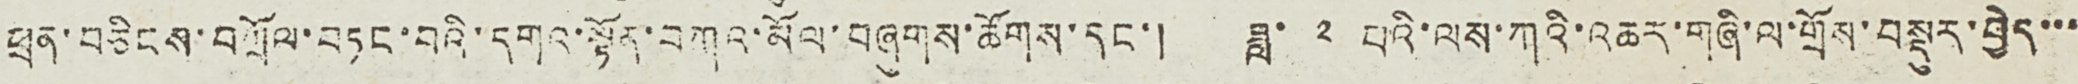ཕྲན་བཅིངས་བཀྲོལ་བཏང་བའི་དགའ་སྟོན་བཀའ་མོལ་བཞུགས་ཚོགས་དང་། ཟླ་ ༢ པའི་ལས་ཀའི་འཆར་གཞི་ལ་གྲོས་བསྡུར་བྱེད་་་
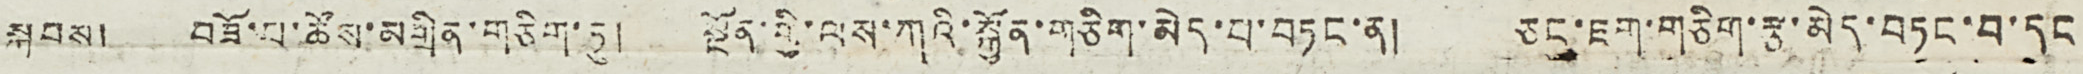སྐབས། བཟོ་པ་ཚོས་མགྲིན་གཅིག་ཏུ། སྔོན་གྱི་ལས་ཀའི་སྐྱོན་གཅིག་མེད་པ་བཏང་ན། ཅང་ཇག་གཅིག་རྩ་མེད་བཏང་བ་དང
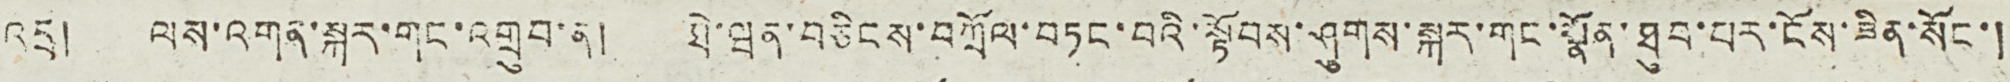འདྲ། ལས་འགན་སྐར་གང་འགྲུབ་ན། ཐེ་ཝན་བཅིངས་བཀྲོལ་བཏང་བའི་སྟོབས་ཤུགས་སྐར་གང་སྣོན་ཐུབ་པར་ངོས་ཟིན་སོང་།
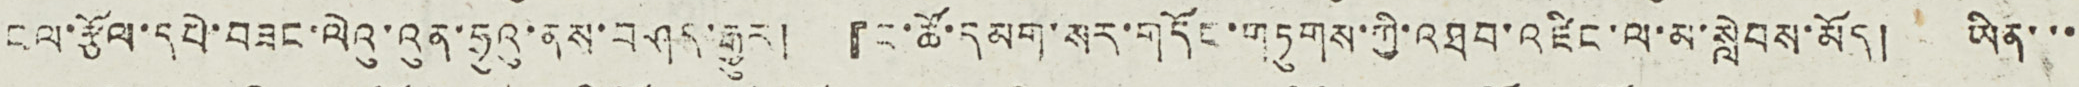ངལ་རྩོལ་དཔེ་བཟང་ལེའུ་འུན་ཧྲུའུ་ནས་བཤད་རྒྱུར། 『ང་ཚོ་དམག་སར་གདོང་གཏུགས་ཀྱི་འཐབ་འཛིང་ལ་མ་སླེབས་མོད། ཡིན་་་
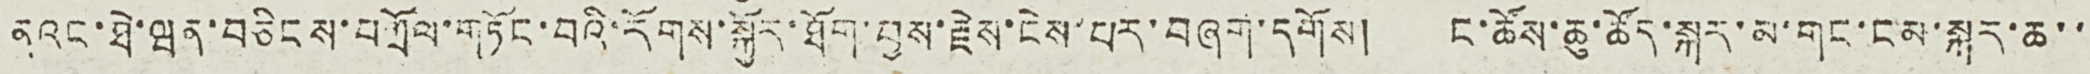ནའང་ཐེ་ཝན་བཅིངས་བཀྲོལ་གཏོང་བའི་རོགས་སྐྱོར་ཐོག་བྱས་རྗེས་ངེས་པར་བཞག་དགོས། ང་ཚོས་ཆུ་ཚོད་སྐར་མ་གང་ངམ་སྐར་ཆ་་
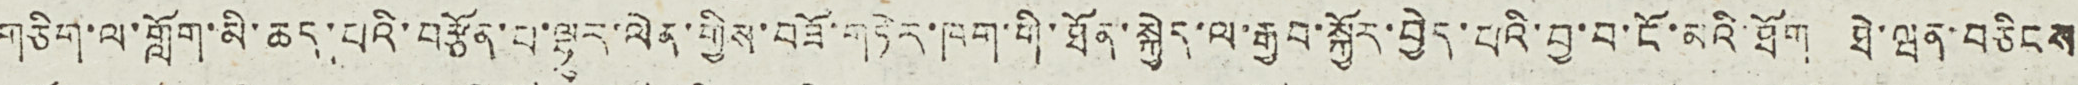གཅིག་ལ་གློག་མི་ཆད་པའི་བརྩོན་པ་ལྷུར་ལེན་གྱིས་བཟོ་གཏེར་ཁག་གི་ཐོན་སྐྱེད་ལ་རྒྱབ་སྐྱོར་བྱེད་པའི་བྱ་བ་ངོ་མའི་ཐོག ཐེ་ཝན་བཅིངས
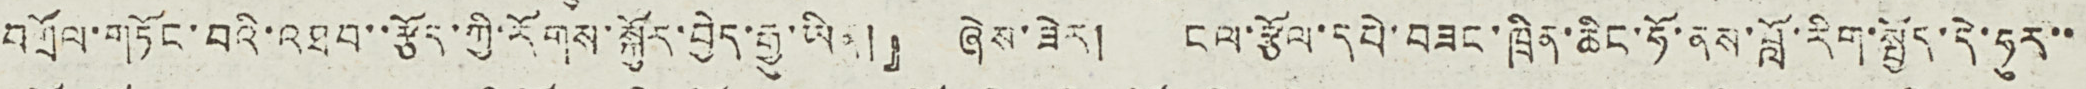བཀྲོལ་གཏོང་བའི་འཐབ་་རྩོད་ཀྱི་རོགས་སྐྱོར་བྱེད་རྒྱུ་ཡིན།』ཞེས་ཟེར། ངལ་རྩོལ་དཔེ་བཟང་ཁྲིན་ཆིང་ཧོ་ནས་བློ་རིག་སྤྱོད་དེ་ཧུར་་
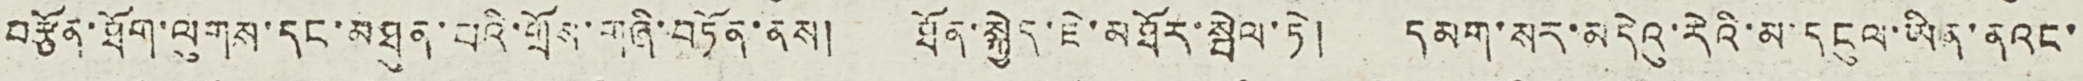བརྩོན་ཐོག་ལུགས་དང་མཐུན་པའི་གྲོས་གཞི་བཏོན་ནས། ཐོན་སྐྱེད་ཇེ་མཐོར་སྤེལ་ཏེ། དམག་སར་མདེའུ་རེའི་མ་དངུལ་ཡིན་ནའང་
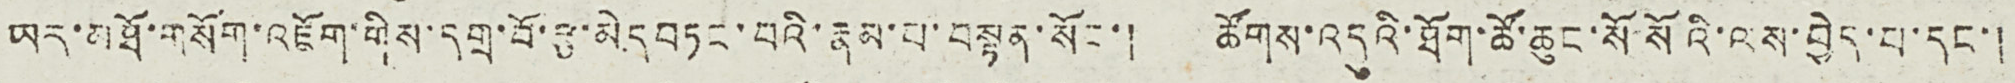ཡར་མཐོ་གསོག་འཇོག་གིས་དགྲ་པོ་རྩ་མེད བཏང་བའི་རྣམ་པ་བསྟན་སོང་། ཚོགས་འདུའི་ཐོག་ཚོ་ཆུང་སོ་སོའི་ལས་བྱེད་པ་དང་།
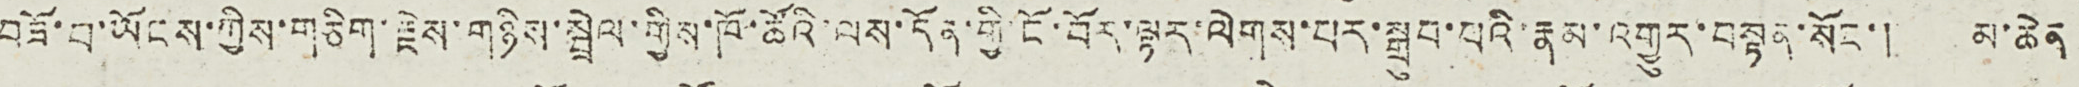བཟོ་བ་ཡོངས་ཀྱིས་གཅིག་རྗེས་གཉིས་སྦྲེལ་གྱིས་ཁོ་ཚོའི་ལས་དོན་གྱི་ངོ་བོར་ལྟར་ལེགས་པར་སྒྲུབ་པའི་རྣམ་འགྱུར་བསྟན་སོང་། མ་ཆེན
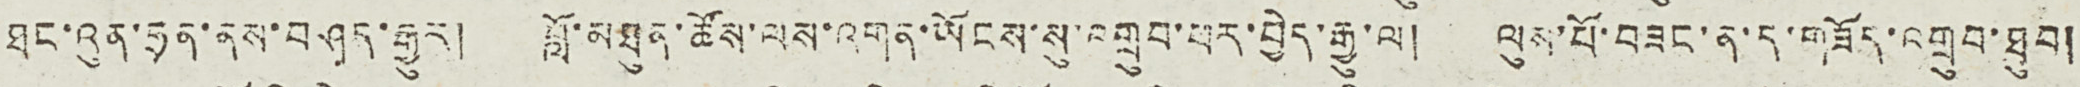ཐང་འུན་ཧྲན་ནས་བཤད་རྒྱུར། བློ་མཐུན་ཚོས་ལས་འགན་ཡོངས་སུ་འགྲུབ་པར་བྱེད་རྒྱུ་ལ། ལུས་པོ་བཟང་ན་ད་གཟོད་འགྲུབ་ཐུབ།
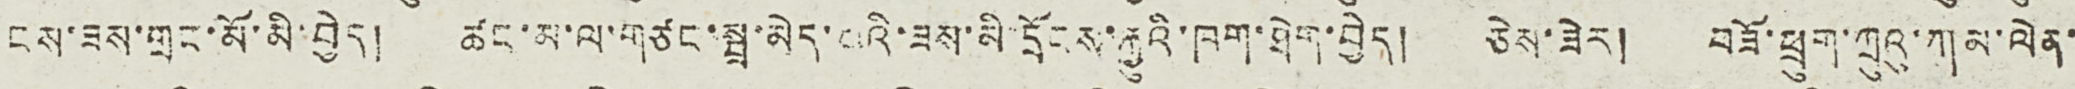ངས་ཟས་གྲང་མོ་མི་བྱེད། ཚང་མ་ལ་གཙང་སྦྲ་མེད་པའི་ཟས་མི་དྲོངས་རྒྱུའི་ཁག་ཐེག་བྱེད། ཅེས་ཟེར། བཟོ་ཕྲུག་ཀྲུའུ་ཀམ་ལེན་
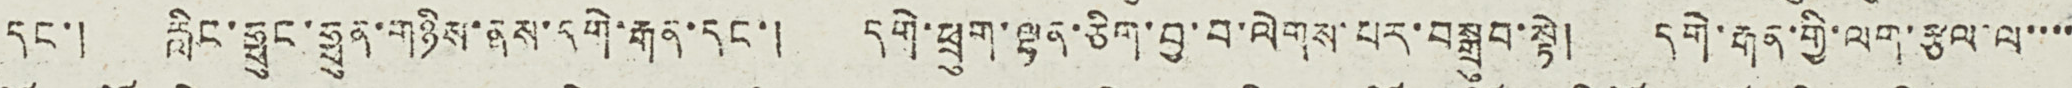དང་། རླིང་ཧྥུང་ཧྥུན་གཉིས་ནས་དགེ་རྒན་དང་། དགེ་ཕྲུག་ལྷན་ཅིག་བྱ་བ་ལེགས་པར་བསྒྲུབ་སྟེ། དགེ་རྒན་གྱི་ལག་རྩལ་ལ་་་་
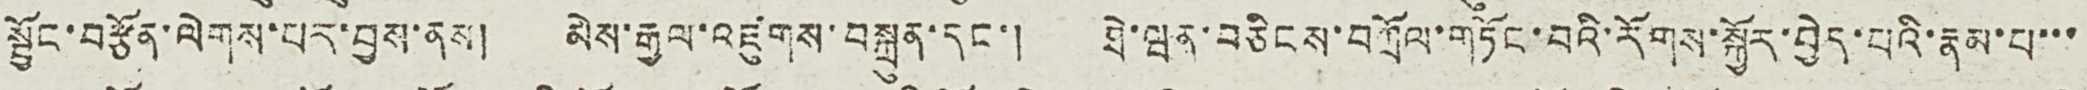སྦྱོང་བརྩོན་ལེགས་པར་བྱས་ནས། མེས་རྒྱལ་འཛུགས་བསྐྲུན་དང་། ཐེ་ཝན་བཅིངས་བཀྲོལ་གཏོང་བའི་རོགས་སྐྱོར་བྱེད་པའི་རྣམ་པ་་་
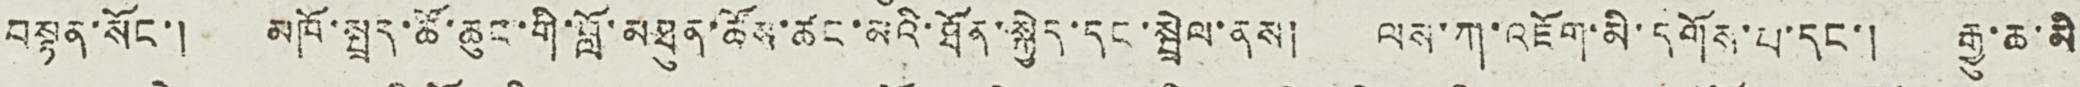བསྟན་སོང་། མཁོ་སྤྲད་ཚོ་ཆུང་གི་བློ་མཐུན་ཚོས་ཚང་མའི་ཐོན་སྐྱེད་དང་སྦྲེལ་ནས། ལས་ཀ་འཇོག་མི་དགོས་པ་དང་། རྒྱུ་ཆ་མི
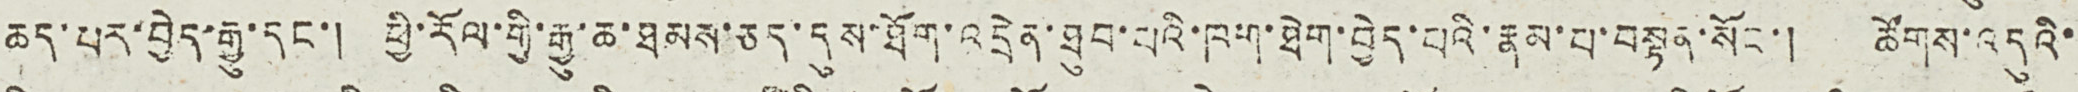ཆད་པར་བྱེད་རྒྱུ་དང་། ཕྱི་རོལ་གྱི་རྒྱུ་ཆ་ཐམས་ཅད་དུས་ཐོག་འདྲེན་ཐུབ་པའི་ཁག་ཐེག་བྱེད་པའི་རྣམ་པ་བསྟན་སོང་། ཚོགས་འདུའི་
